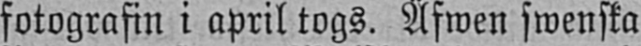fotografin i april togs. Äfwen swenska
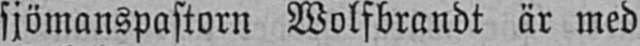sjömanspastorn Wolfbrandt är med
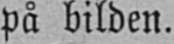på bilden.
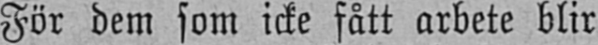För dem som icke fått arbete blir
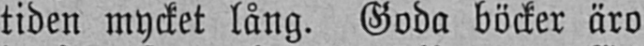tiden mycket lång. Goda böcker äro
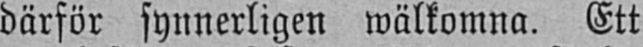därför synnerligen wälkomna. Ett
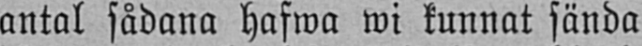antal sådana hafwa wi kunnat sända
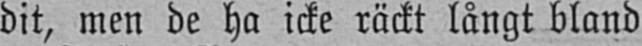dit, men de ha icke räckt långt bland
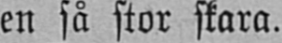en så stor skara.
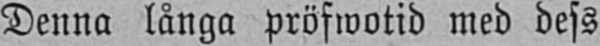Denna långa pröfwotid med dess
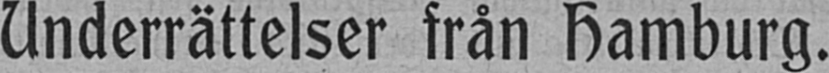Underrättelser från Hamburg.
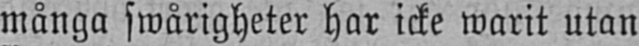många swårigheter har icke warit utan
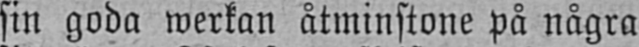sin goda werkan åtminstone på några
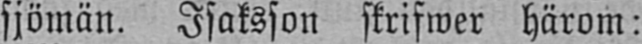sjömän. Isaksson skrifwer härom:
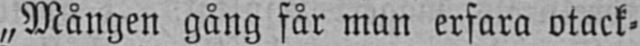„Mången gång får man erfara otack-
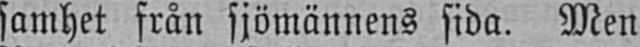samhet från sjömännens sida. Men
